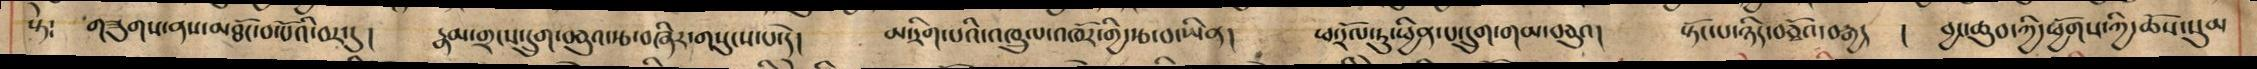སྟེ: གཟུགས་ནས་མཐོང་བ་པོའི་བར་དུ། རྣམས་གྲངས་དྲུག་བཅུའ་རྩ་བཞཱིར་གསུངས་པ་དེ། མ་རིག་པའི་འཁྲུལ་འཁོར་གྱི་རྩ་བ་ཡིན། ཕ་རོལ་ཏུ་ཕྱིན་པ་དྲུག་གམ་བཅུའ། སྟོང་པ་ཉིད་བཅྭོའ་བརྒྱད །  བྱང་ཆུབ་ཀྱི་ཕྱོགས་ཀྱི་ཆོས་སུམ
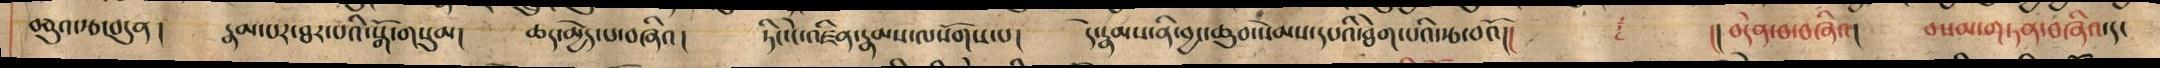བཅུའ་རྩ་བདུན །  རྣམ་པར་ཐར་པའི་སྒོ་གསུམ། ཆད་མྱེད་པ་བཞིའ། ཏིང་ངེ་འཛིན་རྣམས་ལསོགས་པ། དེ་རྣམས་ནི་བྱང་ཆུབ་སེམས་དཔའི་ཐེག་པའི་རྩ་བའོ།། །།བདེན་བ་བཞིའ། བསམ་གཏན་བཞིའ་དང
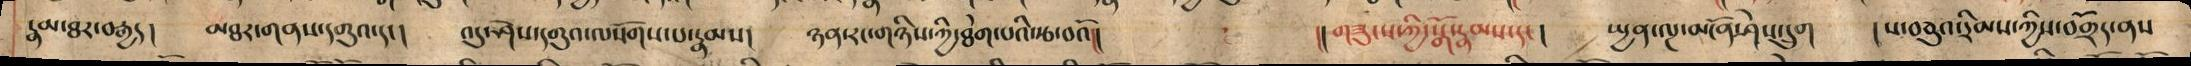རྣམ་ཐར་བརྒྱད། མཐར་གནས་དགུའ་དང། འདུ་ཤེས་དགུའ་ལསོགས་པ་རྣམས། ཉན་རང་གཉིས་ཀྱི་ཐེག་པའི་རྩ་བའོ།། །།གཟུགས་ཀྱི་སྒོ་རྣམས་དང། སྤྱན་ལྔ་མངོན་ཤེས་དྲུག །ས་བཅུའ་རིམས་ཀྱིས་བགྲོད་ནས
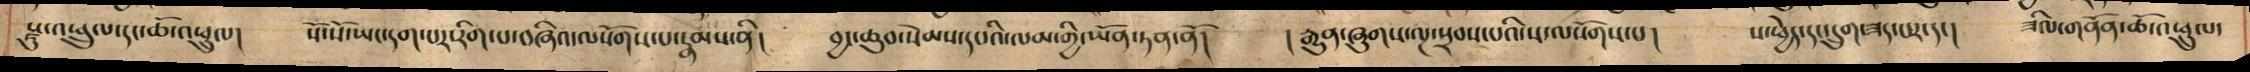སྫུ་འཕྲུལ་དང་ཆོ་འཕྲུལ། སོ་སོ་ཡང་དག་པར་རིག་པ་བཞིའ་ལསོགས་པ་རྣམས་ནི། བྱང་ཆུབ་སེམས་དཔའི་ལམ་གྱི་ཡོན་ཏན་ནོ། །རྒྱུན་ཞུགས་ལྔ་སྲབས་པའི་ས་ལསོགས་པ། ས་ཕྱེད་དང་དྲུག་ཟད་པར་དང། ཟིལ་གནོན་ཆོ་འཕྲུལ་
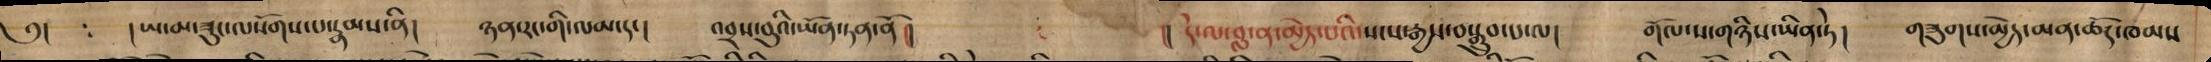༅། : །ཡ་མ་ཟུང་ལ་སོགས་པ་རྣམས་ནི། ཉན་རང་གི་ལམ་དང། འབྲས་བུའི་ཡོན་ཏན་ནོ།། །། དེ་ལ་བླ་ན་མྱེད་པའི་སངས་རྒྱས་བསྒྲུབ་པ་ལ། གོལ་ས་གཉིས་ཡིན་ཏེ། གཟུགས་མྱེད་མན་ཆོད་ཁམས
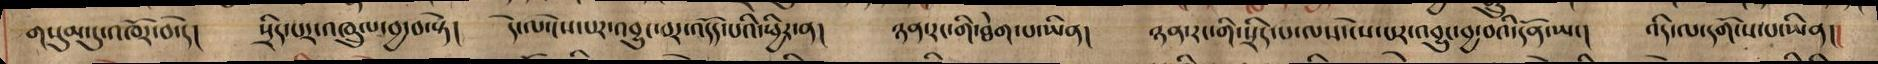གསུམ་དུ་འཁོར་བ་དེ། སྲིད་པར་འཁྲུལ་བྱ་བ་སྟེ། དེ་ལ་ངེས་པར་འབྱུང་བར་འདོད་པའི་ཕྱིར་ན། ཉན་རང་གི་ཐེག་པ་ཡིན། ཉན་རང་གི་སྲིད་པ་ལས་ངེས་པར་འབྱུང་བྱ་བའི་དོན་ཡང། འདི་ལ་དགོངས་པ་ཡིན།།
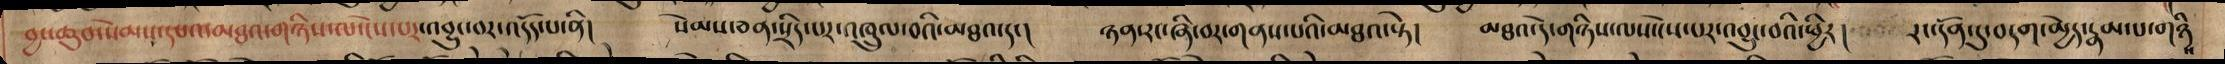བྱང་ཆུབ་སེམས་དཔའ་མཐའ་གཉིས་ལ་ངེས་པར་འབྱུང་བར་འདོད་པ་ནི། སེམས་ཅན་སྲིད་པར་འཁྲུལ་བའི་མཐའ་དང། ཉན་རང་ཞི་བར་གནས་པའི་མཐའ་སྟེ། མཐའ་དེ་གཉིས་ལས་ངེས་པར་འབྱུང་བའི་ཕྱིར ། རང་དོན་དུ་བདག་མེད་རྣམ་པ་གཉི
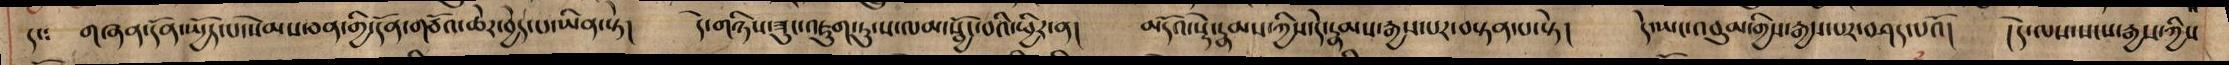དང: གཞན་དོན་སྤྱོད་པ་སེམས་ཅན་གྱི་དོན་གཙོའ་ཆེར་བྱེད་པ་ཡིན་སྟེ། དེ་གཉིས་ཟུང་འཇུག་ཏུ་ས་ལམ་སྦྱོང་བའི་ཕྱིར་ན། མདོའ་སྡེ་རྣམས་ཀྱིས་དེ་རྣམས་རྒྱས་པར་བསྟན་པ་སྟེ།  དེ་ཡང་འབུམ་གྱིས་རྒྱས་པར་བཤད་པའོ། །དེ་ལས་སངས་རྒྱས་ཀྱིས
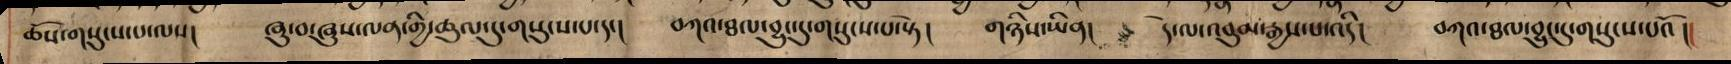ཆོས་གསུངས་པ་ལས། ཞུ་བ་ཞུས་ལན་གྱི་ཆུལ་དུ་གསུངས་པ་དང། བཀའ་ཐལ་བྱུང་དུ་གསུངས་པ་སྟེ། གཉིས་ཡིན། དེ་ལ་འབུམ་རྒྱས་པ་འདི། བཀའ་ཐལ་བྱུང་དུ་གསུངས་པའོ།།
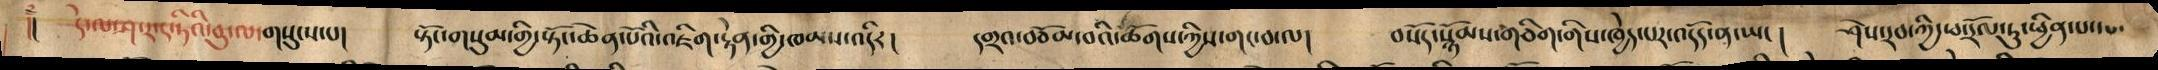།། དེ་ལ་ཤ་ར་ད་ཏིའི་བུ་ལ་གསུངས་པ། སྟོང་གསུམ་གྱི་སྟོང་ཆེན་པོའི་འཇིག་རྟེན་གྱི་ཁམས་འདིར། དགྲའ་བཅོམ་བའི་ཚོགས་ཀྱིས་གང་བ་ལ། བསོད་སྙོམས་གཅིག་གིས་ཁྱེད་པར་འདོད་ན་ཡང། ཤེས་རབ་ཀྱི་ཕ་རོལ་ཏུ་ཕྱིན་པ་ལ་
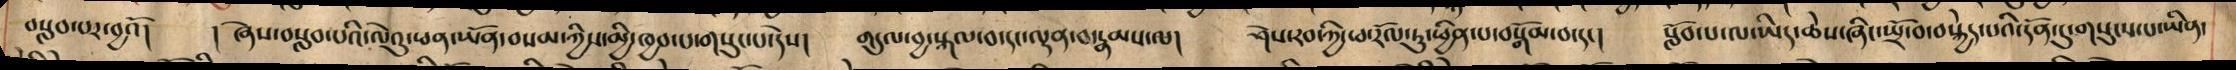་བྱའོ། ། ཞེས་བསླབ་པའི་ལེའུ་ཕན་ཡོན་བསམ་ཀྱིས་མྱི་ཁྱབ་པ་གསུང་པདེས། གདུལ་བྱ་སྐལ་བ་དང་ལྡན་བ་རྣམས་ལ། ཤེས་རབ་ཀྱི་ཕ་རོལ་ཏུ་ཕྱིན་པ་བསྒོམ་པ་དང། སློབ་པ་ལ་ཡིད་ཆེས་ཞིང་སྤྲོ་བ་བསྐྱེད་པའི་དོན་དུ་གསུངས་པ་ཡིན་
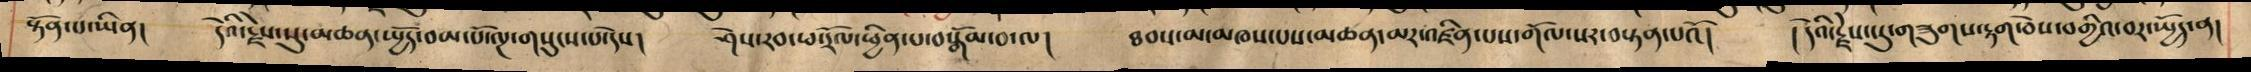སྟོན་པ་ཡིན། དེའི་རྗེས་སུ་མཆན་སྤྱོད་བམ་པོ་ལྔ་གསུངས་པ་དེས། ཤེས་རབ་ཕ་རོལ་ཕྱིན་པ་བསྒོམ་བ་ལ། ཐབས་མ་མཁས་པས་མཚན་མར་འཛིན་པས་གོལ་སར་བསྟན་པའོ། །དེའི་རྗེས་སུ་གཟུགས་རྟག་ཅེས་བགྱིའ་བར་ཡྱོད་ན།
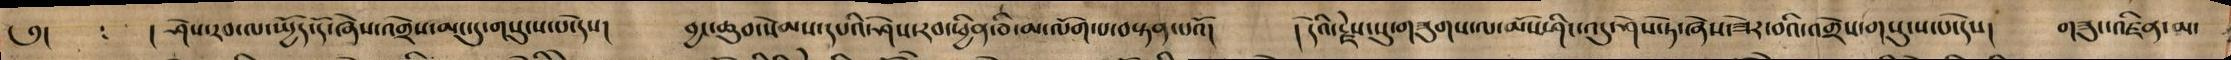༅། ། ཤེས་རབ་ལ་ཡྱོད་དོ་ཞེས་འགྲེས་མང་དུ་གསུངས་པ་དེས། བྱང་ཆུབ་སེམས་དཔའི་ཤེས་རབ་ཕྱིན་ཅི་མ་ལོག་པ་བསྟན་པའོ། ། དེའི་རྗེས་སུ་གཟུགས་ལ་མོས་ཤིང་འདུ་ཤེས་ཏེ་ཞེས་ཟེར་བའི་འགྲེས་གསུངས་པ་དེས། གཟུང་འཛིན་མ་
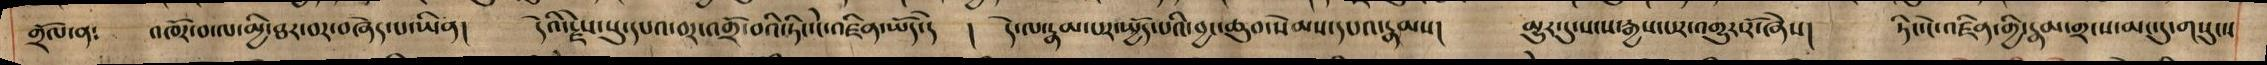གྲོལ་ན: འཁོར་བ་ལ་མྱི་ཐར་བར་བཞེད་པ་ཡིན། དེའི་རྗེ་སུ་དཔའ་བར་འགྲོ་བའི་ཏིང་ངེ་འཛིན་ཡོད་དེ ། དེ་ལ་རྣམ་པར་ཡྱོད་པའི་བྱང་ཆུབ་སེམས་དཔའ་རྣམས། མྱུར་དུ་སངས་རྒྱས་པར་འགྱུར་རོ་ཞེས། ཏིང་ངེ་འཛིན་གྱི་རྣམ་གྲངས་མང་དུ་གསུངས
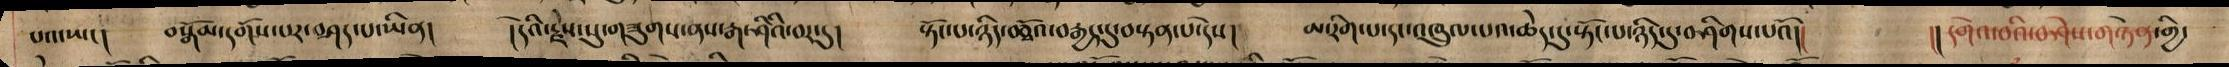པའ་ཡང། བསྒོམ་དགོས་པར་བཤད་པ་ཡིན། །དེའི་རྗེས་སུ་གཟུགས་ནས་རྒ་ཤིའི་བར་དུ། སྟོང་པ་ཉིད་བཅྭོའ་བརྒྱད་དུ་བསྟན་པ་དེས། མ་རིག་པ་དང་འཁྲུལ་པའ་ཆེད་དུ་སྟོང་པ་ཉིད་དུ་བཤིགས་པའོ།། །།དགེའ་བའི་བཤེས་གཉེན་གྱི་
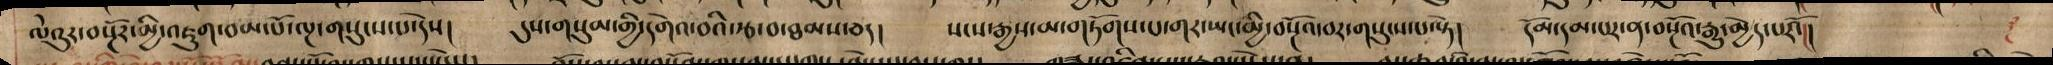ལེའུར་བསྔོར་མྱི་འཇུག་བམ་པོ་ལྔ་གསུངས་པ་དེས། དུས་གསུམ་གྱི་དགེའ་བའི་རྩ་བ་ཐམས་ཅད། སངས་རྒྱས་མ་གཏོགས་པ་གར་ཡང་མྱི་བསྔོའ་བར་གསུངས་པ་སྟེ། དོམ་དམ་པར་ན་བསྔོའ་རྒྱུ་མྱེད་པར་།། ༈
